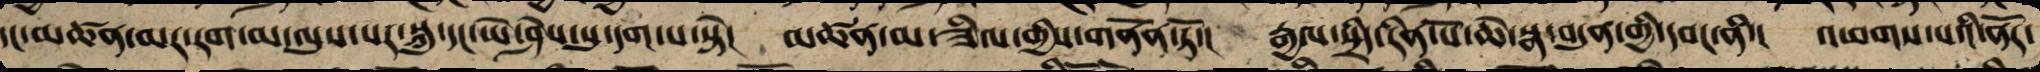དང་མཚན་མར་རག་མ་ལུས་པར་སྐུ་དང་ཡེ་ཤེས་སུ་དག་པ་སྟེ་། མཚན་མ་ཟིལ་གྱིས་གནོན་ཏོ་། རྒྱལ་སྲིད་རིན་པོ་ཆེ་སྣ་བདུན་གྱི་དབང་ནི་། འཕགས་པའི་ནོར་
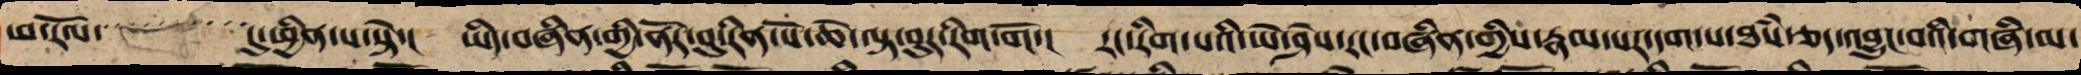ཕ་རོལ་་་་་་་་་་་་དུ་ཕྱིན་པ་སྟེ་། ཡིད་བཞིན་གྱི་ནོར་བུ་རིན་པོ་ཆེ་ལྟ་བུར་རིག་གོ་། རང་རིག་པའི་ཡེ་ཤེས་རང་བཞིན་གྱིས་རྣམ་པར་དག་པ་ཐཾས་ཅད་འབྱུང་བའི་གཞི་མ་
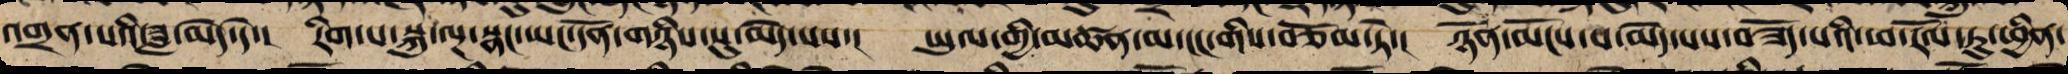འགྲན་པའི་ཟླ་མེད་དེ་། རིག་པ་སྐུ་ལྔར་སྣང་ཡང་དོན་གཉིས་སུ་མེད་པས་། ཡུལ་གྱི་མཚན་མ་ངང་གིས་བཅོམ་སྟེ་། ཉོན་མོངས་པ་མེད་པས་བཟོད་པའི་ཕ་རོལ་ཏུ་ཕྱིན་
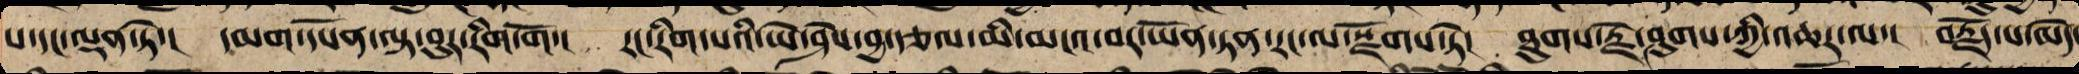པ་དང་ལྡན་པས་། དམག་དཔོན་ལྟ་བུར་རིག་གོ་། རང་རིག་པའི་ཡེ་ཤེས་བྱ་རྩོལ་མི་མངའ་བར་ཡོན་ཏན་རང་ལ་སྫོགས་ཏེ། ཐུགས་རྗེ་ཤུགས་ཀྱིས་འཆར་ལ་། བརྗོད་པ་མེད་
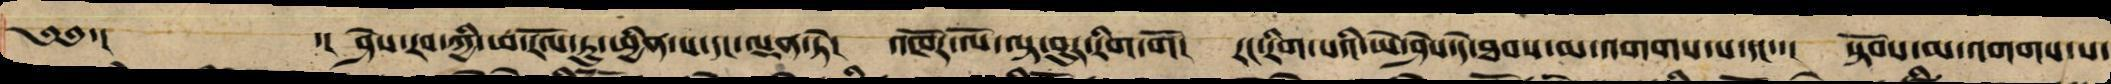༄༅་། ་། ཤེས་རབ་ཀྱི་ཕ་རོལ་ཏུ་ཕྱིན་པ་དང་ལྡན་ཏེ་། འཁོར་ལོ་ལྟ་བུར་རིག་གོ། རང་རིག་པའི་ཡེ་ཤེས་དེ་ཐབས་མ་འགགས་པས་དང་་། སྟོབས་མ་འགགས་པ་
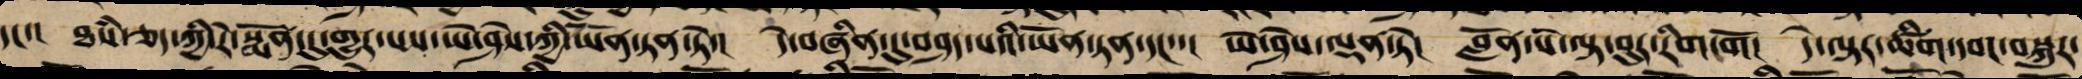དང་། ཐཾས་ཅད་ཀྱི་རེ་སྨོན་དུ་གྱུར་པས་ཡེ་ཤེས་ཀྱི་ཡོན་ཏན་ཏེ་། དེ་བཞིན་དུ་བཤད་པའི་ཡོན་ཏན་དང་་། ཡེ་ཤེས་ལྡན་ཏེ་། བློན་པོ་ལྟ་བུར་རིག་གོ། དེ་ལྟར་ཚིག་དབང་བསྐུར་
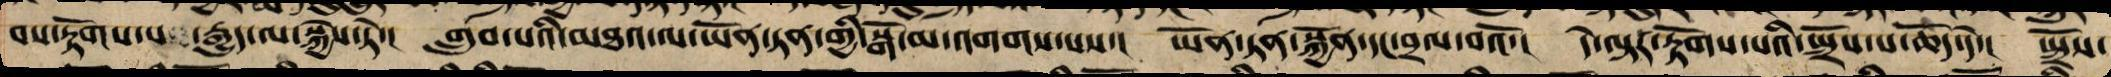བས་རྟོགས་པ་རྒྱུད་ལ་སྐྱེས་ཏེ་། གྲུབ་པའི་མཐའ་ལ་ཡོན་ཏན་གྱི་སྒོ་མ་འགགས་པས་། ཡོན་ཏན་སྐྱོན་དང་བྲལ་བའོ་། དེ་ལྟར་རྟོགས་པའི་སྤྲོས་པ་ཆོད་དེ་། སྤྲོས་
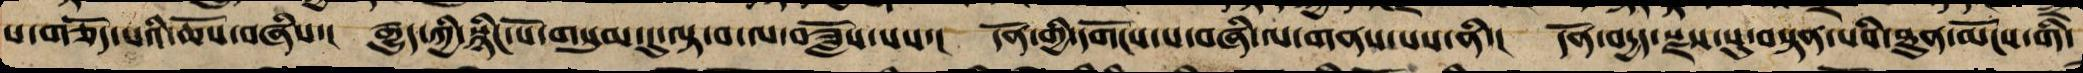པ་གཅོད་པའི་ཆོས་བཞིས་། རྒྱུད་ཀྱི་སྙིང་པོ་གསུམ་དུ་ལྟ་བ་ལ་བཟློས་པས་། དོན་གྱི་དགོངས་པ་བཞི་ལ་གནས་པས་ནི་། དོན་བདྱད་སྫས་སུ་བསྟན་པའི་ཐུན་མོང་གི་
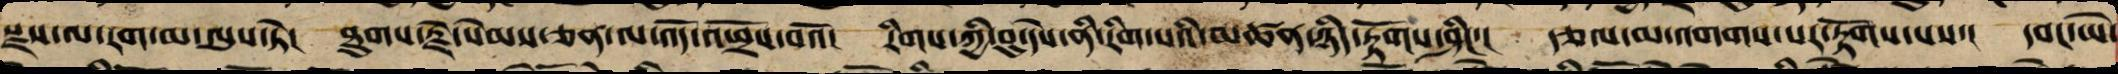རྫས་ལ་རག་མ་ལུས་ཏེ་། ཐུགས་རྗེས་སེམས་ཅན་ལ་འོད་འཕྲོ་བའོ། རིགས་ཀྱི་བུ་དེས་ནི་རིག་པའི་མཚན་ཉིད་རྟོགས་ཤིང་། རྩལ་མ་འགགས་པར་རྟོགས་པས་། དབང་ཡེ་
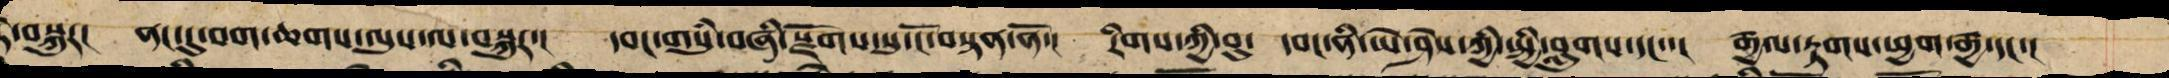ཏེ་བསྐུར། ནང་དུ་བག་ཆགས་ལུས་ལ་བསྐུར་། དབང་གསུཾ་བཞི་སྫོགས་སུ་ངོ་བསྟན་ནོ་། རིགས་ཀྱི་བུ་ དབང་ནི་ཡེ་ཤེས་སྤྱི་བླུག་དང་་། རྒྱལ་རྟགས་ཕྱག་རྒྱ་དང་།
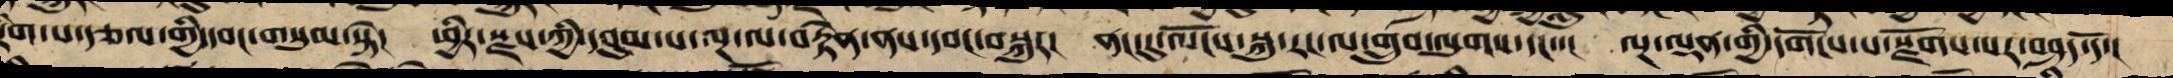རིག་པ་རྩལ་གྱི་དབང་གསུམ་སྟེ། ཕྱིར་སྫས་ཀྱི་བུམ་པ་ལྔ་ལ་བརྟེན་ནས་དབང་བསྐུར། ནང་དུ་ལོངས་སྐུ་རང་ལ་གྲུབ་ལུགས་དང་་། ལྔ་ལྡན་གྱི་དགོངས་པ་སྫོགས་པར་བཤད་དོ་།
